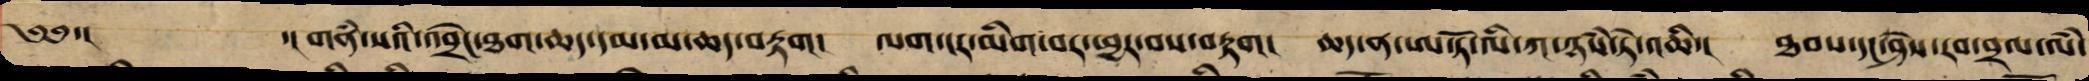༄༅་། ་། གནཾ་སའི་འབྲེང་ཐག་ཆད་དམ་མ་ཆད་བརྟག། ལག་ངར་མིག་བར་ཕྱར་བས་བརྟག། ཆད་ན་ཨ་ཏོ་ལི་ཀ་ཉཾས་ཏེ་འཆི་། ཐབས་དང་ཤེས་རབ་བྲལ་ལཾ་
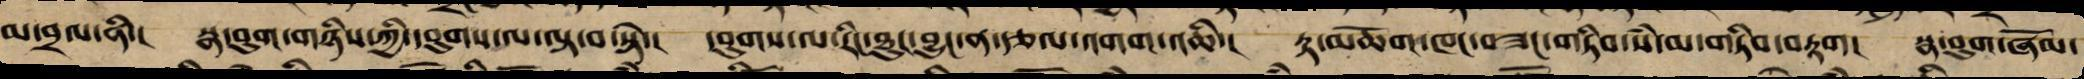མ་བྲལ་ནི་། སྣ་བུག་གཉིས་ཀྱི་དབུགས་ལ་ལྟ་བ་སྟེ་། དབུགས་ལ་རིང་ཐུང་བྱུང་ན་རྩལ་འགག་འཆི་། རྟ་མཆོག་ཁང་བཟང་གཏིབ་སཾ་མ་གཏིབ་བརྟག། སྣ་བུག་ཞོམ་
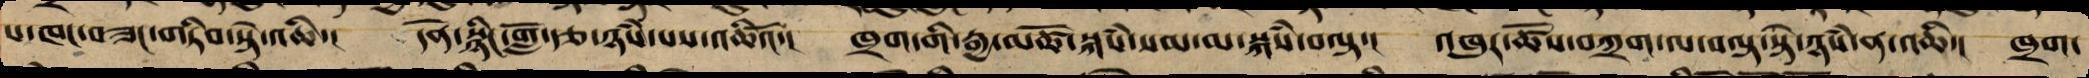པ་ཁང་བཟང་གཏིབ་སྟེ་འཆི་། དོན་སྙིང་གློ་རྩ་ཉཾས་པས་འཆིའོ་། ཁྲག་གི་རྒྱ་མཚོ་སྐཾས་སམ་མ་སྐཾས་བལྟ་། འཁུར་ཚོས་བཀྲག་ལ་བལྟ་སྟེ་ཉཾས་ན་འཆི་། ཁྲག་
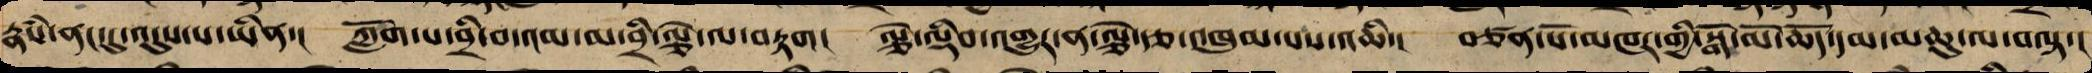རྣཾས་ནང་དུ་འདུས་པ་ཡིན་། ཀློག་པ་བྲི་བ་འམ་མ་བྲི་ལྕེ་ལ་བརྟག། ལྕེ་ལྡིབ་འགྱུར་ན་ལྕེ་རྩ་འཁུམ་པས་འཆི་། བཙན་པོ་མཁར་གྱི་སྒོ་མོ་ཆོད་དམ་མཆུ་ལ་བལྟ་།
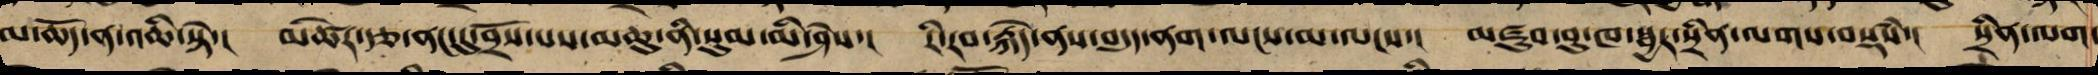མ་ཆོད་ན་འཆི་སྟེ་། མཚེར་རྩ་ནང་དུ་བྲོས་པས་མཆུ་ནི་སུམ་མི་ཤེས་། རི་རབ་རྐེད་ནས་བདུད་ནག་ལངས་མ་ལངས་། མཛུབ་བུ་ཁ་སྦྱར་སྲིན་ལག་བསྡཾས་། སྲིན་ལག་
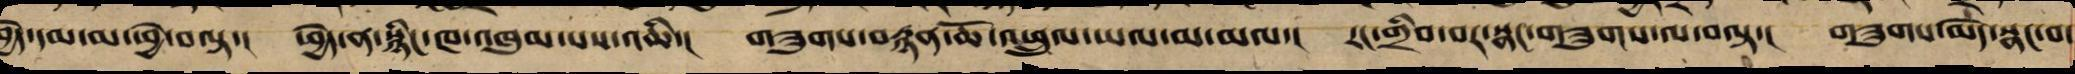བྱེད་དམ་མ་ཕྱེ་བལྟ་། ཕྱེད་ན་སྙིང་ཁ་འཁུམ་པས་འཆི་། གཟུགས་བརྙན་ཆོ་འཕྲུལ་ཡལ་མ་མལ་། རང་གྲིབ་བར་སྣང་གཟུགས་ལ་བལྟ་། གཟུགས་མེད་སྣང་བ་
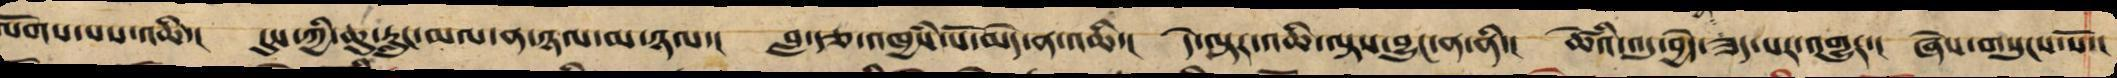ལོགས་པས་འཆི་། དུས་ཀྱི་ཆུ་རླུང་མལ་ན་ཉལ་མ་ཉལ་། བླ་རྩ་འཁྱཾས་པོ་མེད་ན་འཆི་། དེ་ལྟར་འཆི་ལྟས་བྱུང་ན་ནི་། ཚེའི་འདུ་བྱེད་ཟད་པར་འགྱུར་། ཞེས་གསུངས་སོ་།
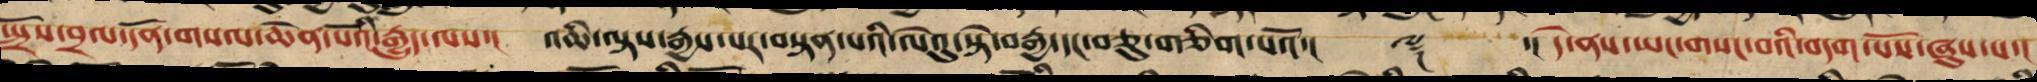སྤྲོས་བྲལ་དོན་གསལ་ཆེན་པོའི་རྒྱུད་ལས་། འཆི་ལྟས་རྒྱས་པར་བསྟན་པའི་ལེའུ་སྟེ་བརྒྱ་དང་བཅུ་གཅིག་པའོ་། ༈ ་། དེ་ནས་ཡང་གསང་བའི་བདག་པོས་ཞུས་པ་།
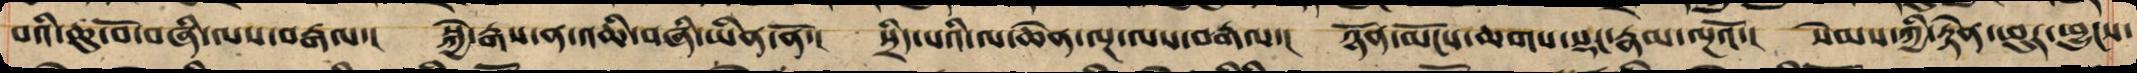བའི་ཆུ་བོ་བཞི་ལས་བརྒལ་། སྐྱེ་རྒས་ན་འཆི་བཞི་ཡིན་ནོ་། སྲིད་པའི་ལ་ཆེན་ལྔ་ལས་བརྒལ་། ཉོན་མོངས་ཆགས་སྡང་རྣམ་ལྔའོ་། སེམས་ཀྱི་རྟེན་ཕུར་ཕྱུངས་
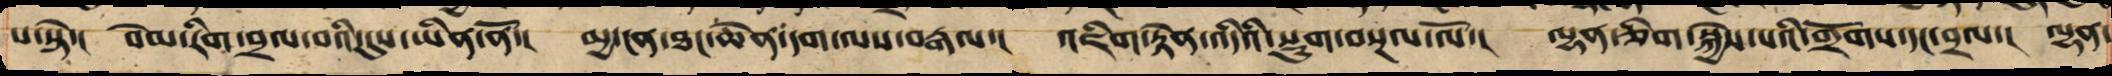པ་སྟེ་། བེམ་རིག་བྲལ་བའི་དུས་ཡིན་ནོ་། མྱ་ངན་ཐང་ཆེན་དག་ལས་བརྒལ་། འཇིག་རྟེན་འདིའི་སྡུག་བསྔལ་ལོ་། ལྷན་ཅིག་སྐྱེས་པའི་གྲོགས་དང་བྲལ་། ལྷན་
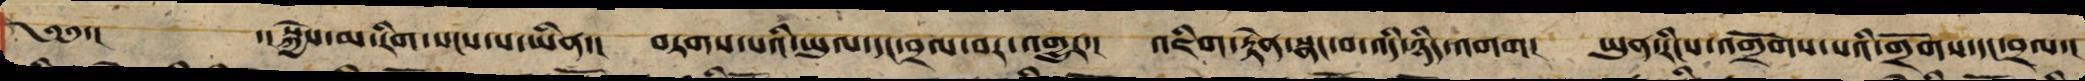༄༅་། ་།སྐྱེས་མ་རིག་སངས་པ་ཡིན་། བཏགས་པའི་ཡུལ་དང་བྲལ་བར་འགྱུར་། འཇིག་རྟེན་སྣང་བ་འདི་ཉིད་འགག། ཡུན་རིངས་འགྲོགས་པའི་གྲོགས་དང་བྲལ་།
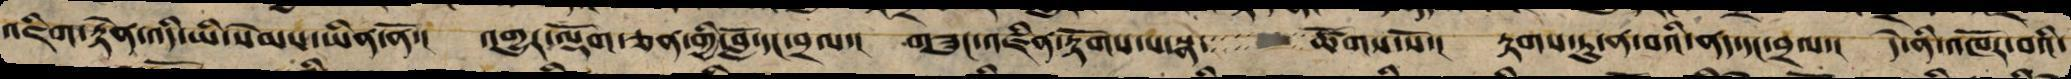འཇིག་རྟེན་འདི་ཡི་སེམས་ཡིན་ནོ་། འགྱུར་ལྡོག་ཅན་གྱི་བློ་དང་བྲལ་། གཟུང་འཛིན་རྟོགས་པ་སྣ་་་་་་་་ཚོགས་སོ་། རྟགས་ཏུ་ན་བའི་ནད་དང་བྲལ་། དེ་ནི་འཁོར་བའི་
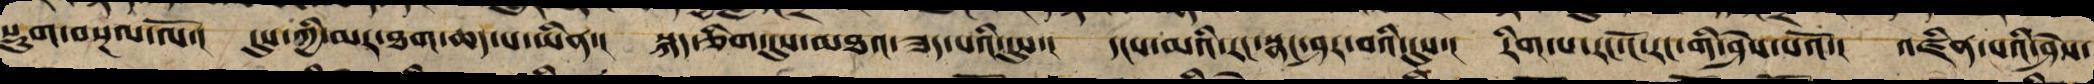སྡུག་བསྔལ་ལོ་། དུས་ཀྱི་མར་ཐག་ཆད་པ་ཡིན་། སྐད་ཅིག་དུས་མཐའ་ཟད་པའི་དུས་། དངས་མའི་རང་སྣང་ཤར་བའི་དུས་། རིག་པ་རང་ངོ་རང་གིས་ཤེས་པའོ་། འཛིན་པའི་ཤེས་
